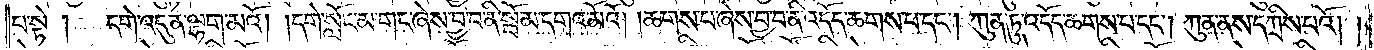པ་སྟེ། དགེ་འདུན་ལྷག་མའོ། །དགེ་སློང་མ་གང་ཞེས་བྱ་བ་ནི་སྦོམ་དགའ་མོའོ། །ཆགས་པ་ཞེས་བྱ་བ་ནི་འདོད་ཆགས་པ་དང༌། ཀུན་ཏུ་འདོད་ཆགས་པ་དང༌། ཀུན་ནས་དཀྲིས་པའོ། །
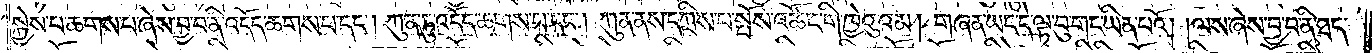སྐྱེས་པ་ཆགས་པ་ཞེས་བྱ་བ་ནི་འདོད་ཆགས་པ་དང༌། ཀུན་ཏུ་འདོད་ཆགས་པ་དང༌། ཀུན་ནས་དཀྲིས་པ་སྤོས་འཚོང་གི་ཁྱེའུའམ། གཞན་ཡང་དེ་ལྟ་བུ་གང་ཡིན་པའོ། །ལས་ཞེས་བྱ་བ་ནི་ཐད་
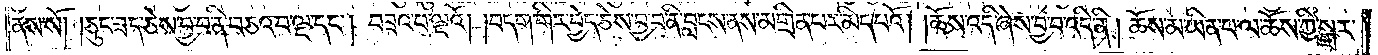ནས་སོ། །ཅུང་ཟད་ཅེས་བྱ་བ་ནི་བཅའ་བ་ལྔ་དང༌། བཟའ་བ་ལྔའོ། །བདག་གིར་བྱེད་ཅེས་བྱ་བ་ནི་བླངས་ནས་མགྲིན་པར་མིད་པའོ། །ཆོས་འདི་ཞེས་བྱ་བ་འདི་ནི། ཆོས་མ་ཡིན་པ་ལ་ཆོས་ཀྱི་སྒྲར་
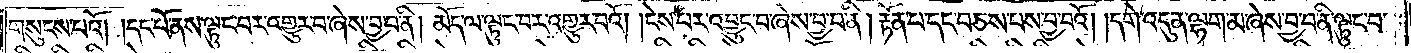གསུངས་པའོ། །དང་པོ་ནས་ལྟུང་བར་འགྱུར་བ་ཞེས་བྱ་བ་ནི། མོད་ལ་ལྟུང་བར་འགྱུར་བའོ། །ངེས་པར་འབྱུང་བ་ཞེས་བྱ་བ་ནི། རྟོན་པ་དང་བཅས་པས་བྱ་བའོ། །དགེ་འདུན་ལྷག་མ་ཞེས་བྱ་བ་ནི་ལྟུང་བ་
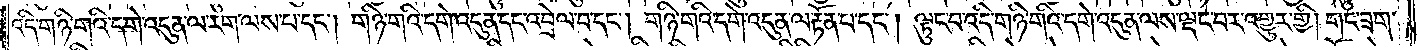འདི་གཉི་གའི་དགེ་འདུན་ལ་རག་ལས་པ་དང༌། གཉི་གའི་དགེ་འདུན་དང་འབྲེལ་བ་དང༌། གཉི་གའི་དགེ་འདུན་ལ་རྟོན་པ་དང༌། ལྟུང་བ་འདི་གཉི་གའི་དགེ་འདུན་ལས་ལྡང་བར་འགྱུར་གྱི། གང་ཟག་
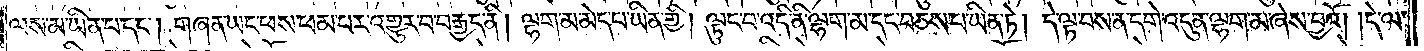ལས་མ་ཡིན་པ་དང༌། གཞན་ཡང་ཕས་ཕམ་པར་འགྱུར་བ་བརྒྱད་ནི། ལྷག་མ་མེད་པ་ཡིན་གྱི། ལྟུང་བ་འདི་ནི་ལྷག་མ་དང་བཅས་པ་ཡིན་ཏེ། དེ་ལྟ་བས་ན་དགེ་འདུན་ལྷག་མ་ཞེས་བྱའོ། །དེ་ལ་
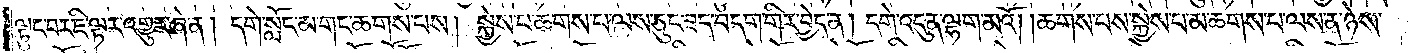ལྟུང་བར་ཇི་ལྟར་འགྱུར་ཞེ་ན། དགེ་སློང་མ་གང་ཆགས་པས། སྐྱེས་པ་ཆགས་པ་ལས་ཅུང་ཟད་བདག་གིར་བྱེད་ན། དགེ་འདུན་ལྷག་མའོ། །ཆགས་པས་སྐྱེས་པ་མ་ཆགས་པ་ལས་ན་ཉེས་
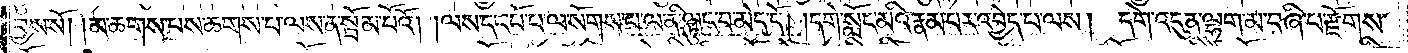བྱས་སོ། །མ་ཆགས་པས་ཆགས་པ་ལས་ན་སྦོམ་པོའོ། །ལས་དང་པོ་པ་ལ་སོགས་པ་ལ་ནི་ལྟུང་བ་མེད་དོ། །དགེ་སློང་མའི་རྣམ་པར་འབྱེད་པ་ལས། དགེ་འདུན་ལྷག་མ་བཞི་པ་རྫོགས་
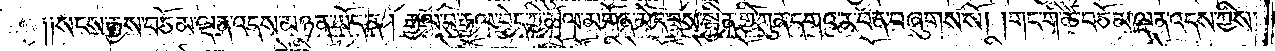༎སངས་རྒྱས་བཅོམ་ལྡན་འདས་མཉན་ཡོད་ན། རྒྱལ་བུ་རྒྱལ་བྱེད་ཀྱི་ཚལ་མགོན་མེད་ཟས་སྦྱིན་གྱི་ཀུན་དགའ་ར་བ་ན་བཞུགས་སོ། །གང་གི་ཚེ་བཅོམ་ལྡན་འདས་ཀྱིས་
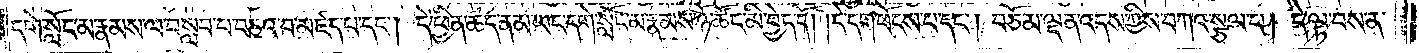དགེ་སློང་མ་རྣམས་ལ་བསླབ་པ་བཅའ་བ་མཛད་པ་དང༌། དེ་ཕྱིན་ཆད་ནམ་ཡང་དགེ་སློང་མ་རྣམས་ཉོ་ཚོང་མི་བྱེད་དོ། །དེ་དག་ཕོངས་པ་དང༌། བཅོམ་ལྡན་འདས་ཀྱིས་བཀའ་སྩལ་པ། དེ་ལྟ་བས་ན་
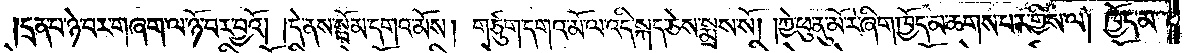དྲན་པ་ཉེ་བར་གཞག་ལ་ཉོ་བར་བྱའོ། །དེ་ནས་སྦོམ་དགའ་མོས། གཙུག་དགའ་མོ་ལ་འདི་སྐད་ཅེས་སྨྲས་སོ། །ཀྱེ་ཕུ་ནུ་མོ་རེ་ཞིག་ཁྱོད་མ་ཆགས་པར་གྱིས་ལ། ཁྱོད་མ་
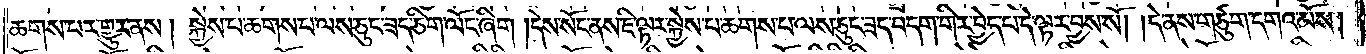ཆགས་པར་གྱུར་ནས། སྐྱེས་པ་ཆགས་པ་ལས་ཅུང་ཟད་ཅིག་ལོང་ཞིག །དེས་སོང་ནས་ཇི་ལྟར་སྐྱེས་པ་ཆགས་པ་ལས་ཅུང་ཟད་བདག་གིར་བྱེད་པ་དེ་ལྟར་བྱས་སོ། །དེ་ནས་གཙུག་དགའ་མོས།
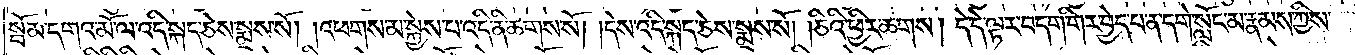སྦོམ་དགའ་མོ་ལ་འདི་སྐད་ཅེས་སྨྲས་སོ། །འཕགས་མ་སྐྱེས་པ་འདི་ནི་ཆགས་སོ། །དེས་འདི་སྐད་ཅེས་སྨྲས་སོ། །ཅིའི་ཕྱིར་ཆགས། དེ་དེ་ལྟར་བདག་གིར་བྱེད་པ་ན་དགེ་སློང་མ་རྣམས་ཀྱིས་
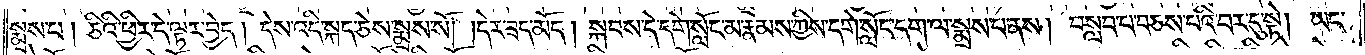སྨྲས་པ། ཅིའི་ཕྱིར་དེ་ལྟར་བྱེད། དེས་འདི་སྐད་ཅེས་སྨྲས་སོ། །དེར་ཟད་མོད། སྐབས་དེ་དགེ་སློང་མ་རྣམས་ཀྱིས་དགེ་སློང་དག་ལ་སྨྲས་པ་ནས། བསླབ་པ་བཅས་པའི་བར་དུ་སྟེ། ཡང་
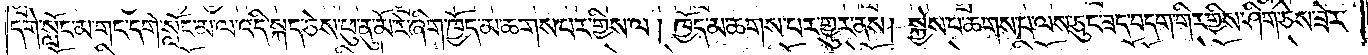དགེ་སློང་མ་གང་དགེ་སློང་མ་ལ་འདི་སྐད་ཅེས་ཕུ་ནུ་མོ་རེ་ཞིག་ཁྱོད་མ་ཆགས་པར་གྱིས་ལ། ཁྱོད་མ་ཆགས་པར་གྱུར་ནས། སྐྱེས་པ་ཆགས་པ་ལས་ཅུང་ཟད་བདག་གིར་གྱིས་ཤིག་ཅེས་ཟེར་
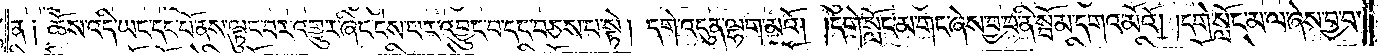ན། ཆོས་འདི་ཡང་དང་པོ་ནས་ལྟུང་བར་འགྱུར་ཞིང་ངེས་པར་འབྱུང་བ་དང་བཅས་པ་སྟེ། དགེ་འདུན་ལྷག་མའོ། །དགེ་སློང་མ་གང་ཞེས་བྱ་བ་ནི་སྦོམ་དགའ་མོའོ། །དགེ་སློང་མ་ལ་ཞེས་བྱ་བ་
